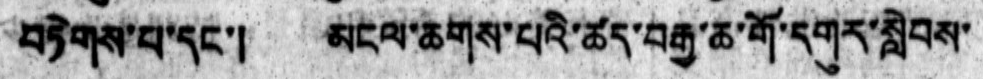བཏེགས་པ་དང་། མངལ་ཆགས་པའི་ཚད་བརྒྱ་ཆ་གོ་དགུར་སླེབས་
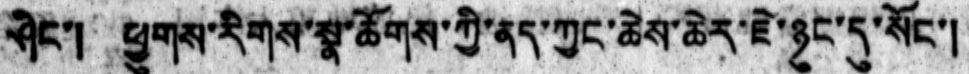ཤིང་། ཕྱུགས་རིགས་སྣ་ཚོགས་ཀྱི་ནད་ཀྱང་ཆེས་ཆེར་ཇེ་ཉུང་དུ་སོང་།
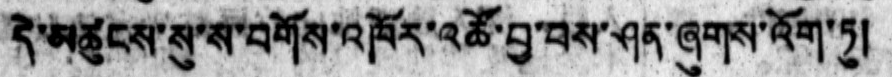དེ་མཚུངས་སུ་ས་བགོས་འཁོར་འཚོ་བྱ་བས་ཤན་ཞུགས་འོག་ཏུ།
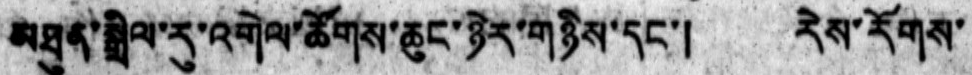མཐུན་སྒྲིལ་རུ་འགེལ་ཚོགས་ཆུང་ཉེར་གཉིས་དང་། རེས་རོགས་
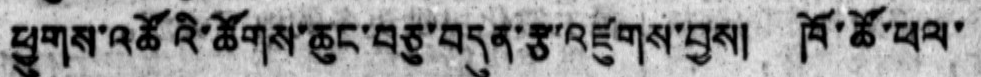ཕྱུགས་འཚོའི་ཚོགས་ཆུང་བཅུ་བདུན་རྩ་འཛུགས་བྱས། ཁོ་ཚོ་ཕལ་
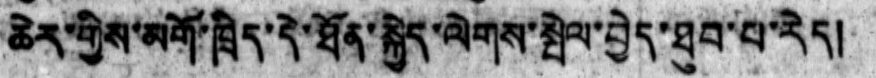ཆེར་གྱིས་མགོ་ཁྲིད་དེ་ཐོན་སྐྱེད་ལེགས་སྤེལ་བྱེད་ཐུབ་པ་རེད།
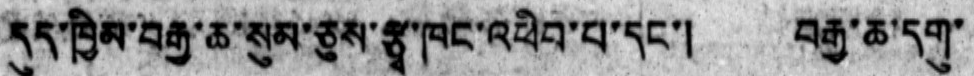དུད་ཁྱིམ་བརྒྱ་ཆ་སུམ་ཅུས་རྩྭ་ཁང་འཕིབ་པ་དང་། བརྒྱ་ཆ་དགུ་
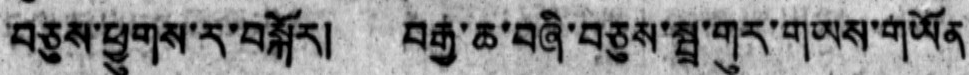བཅུས་ཕྱུགས་ར་བསྐོར། བརྒྱ་ཆ་བཞི་བཅུས་སྦྲ་གུར་གཡས་གཡོན
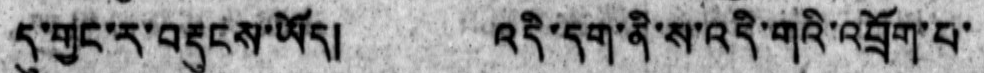དུ་གྱང་ར་བརྡུངས་ཡོད། འདི་དག་ནི་ས་འདི་གའི་འབྲོག་པ་
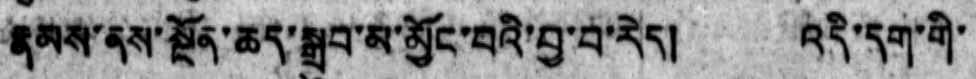རྣམས་ནས་སྔོན་ཆད་སྒྲུབ་མ་མྱོང་བའི་བྱ་བ་རེད། འདི་དག་གི་
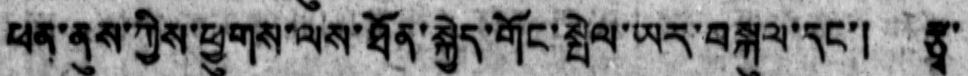ཕན་ནུས་ཀྱིས་ཕྱུགས་ལས་ཐོན་སྐྱེད་གོང་སྤེལ་ཡར་བསྐུལ་དང་། རྩྭ་
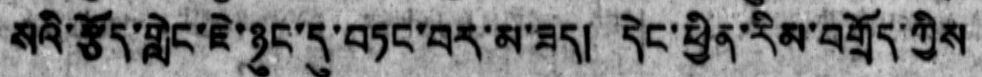སའི་རྩོད་གླེང་ཇེ་ཉུང་དུ་བཏང་བར་མ་ཟད། དེང་ཕྱིན་རིམ་བགྲོད་ཀྱིས
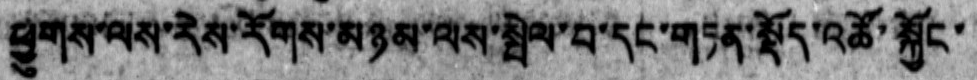ཕྱུགས་ལས་རེས་རོགས་མཉམ་ལས་སྤེལ་བ་དང་གཏན་སྡོད་འཚོ་སྐྱོང་
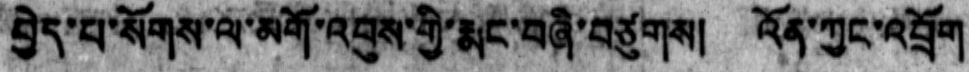བྱེད་པ་སོགས་ལ་མགོ་འབུས་ཀྱི་རྨང་བཞི་བཙུགས།   འོན་ཀྱང་འབྲོག
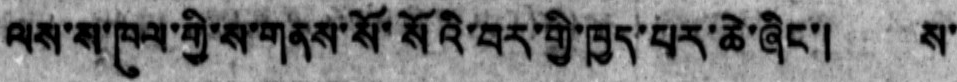ལས་ས་ཁུལ་གྱི་ས་གནས་སོ་སོའི་བར་གྱི་ཁྱད་པར་ཆེ་ཞིང་།   ས་
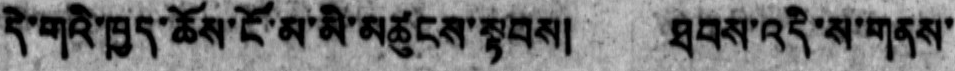དེ་གའི་ཁྱད་ཆོས་ངོ་མ་མི་མཚུངས་སྟབས།  ཐབས་འདི་ས་གནས་
